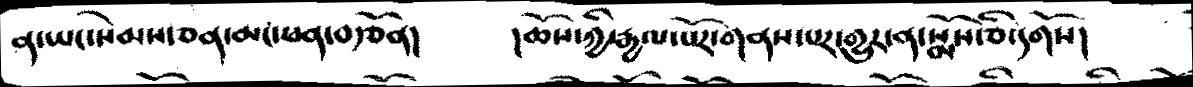ན་ཡང་སེམས་ཅན་མང་ཕན་བརྩོན།   །ཆོས་ཀྱི་རྒྱལ་པོར་གནས་པར་གྱུར་ན་སྨོས་ཅི་དགོས།
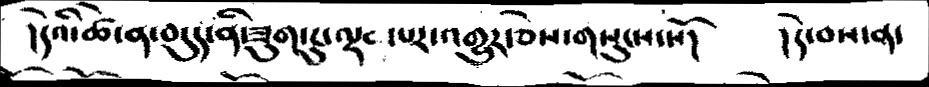།དེའི་ཚེ་ན་བདུད་ནི་ཟུག་ངུ་ལྡན་པར་འགྱུར་ཅེས་གསུངས་སོ།      །དེ་བས་ན་
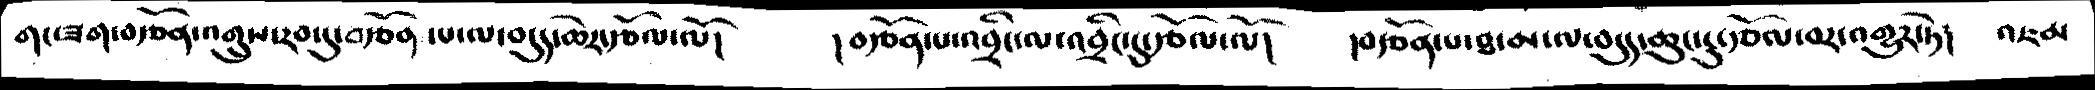གང་ཟག་བརྩོན་འགྲུས་རབ་དུ་བརྩོན་པ་ལ་བདུད་ཆེར་རྩོལ་ལོ།    །བརྩོན་པ་འབྲིང་ལ་འབྲིང་དུ་རྩོལ་ལོ།   །བརྩོན་པ་ཐ་མ་ལ་བདུད་ཆུང་ངུ་རྩོལ་བར་འགྱུར་ཏེ།   འཇམ
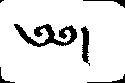༄༅།
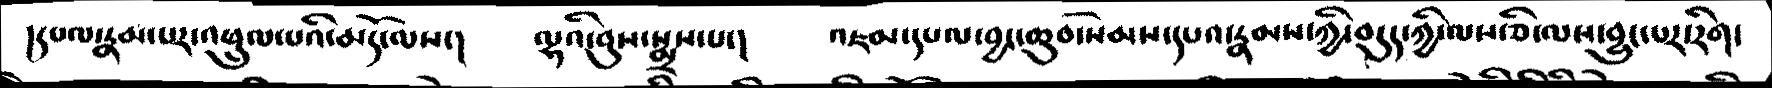།དཔལ་རྣམ་པར་འཕྲུལ་པའི་མདོ་ལས་།    ལྷའི་བུས་སྨྲས་པ་།   འཇམ་དཔལ་བྱང་ཆུབ་སེམས་དཔའ་རྣམས་ཀྱི་བདུད་ཀྱི་ལས་ཅི་ལས་བྱུང་པར་རིག་
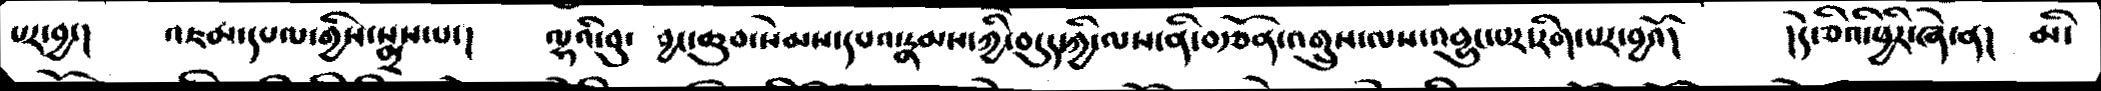པར་བྱ་།   འཇམ་དཔལ་གྱིས་སྨྲས་པ་།    ལྷའི་ བུ་བྱང་ཆུབ་སེམས་དཔའ་རྣམས་ཀྱི་བདུད་ཀྱི་ལས་ནི་བརྩོན་འགྲུས་ལས་འབྱུང་པར་རིག་པར་བྱའོ།     །དེ་ཅིའི་ཕྱིར་ཞེ་ན།   མི་
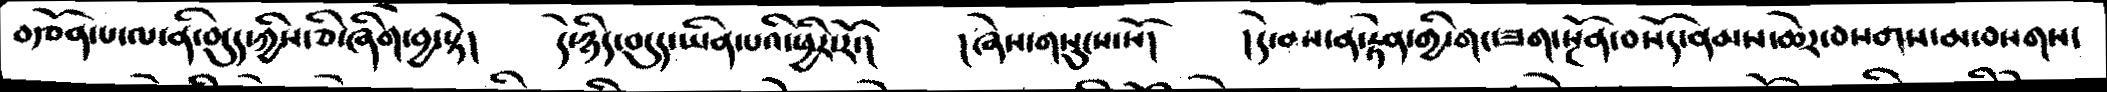བརྩོན་པ་ལ་ནི་བདུད་ཀྱིས་ཅི་ཞིག་བྱ་སྟེ།    དེ་ཉིད་བདུད་ཡིན་པའི་ཕྱིར་རོ་།   །ཞེས་གསུངས་སོ།  །དེ་བས་ན་རྟེན་གྱི་གང་ཟག་སྔོན་བསོད་ནམས་ཆེར་བསགས་མ་བསགས་
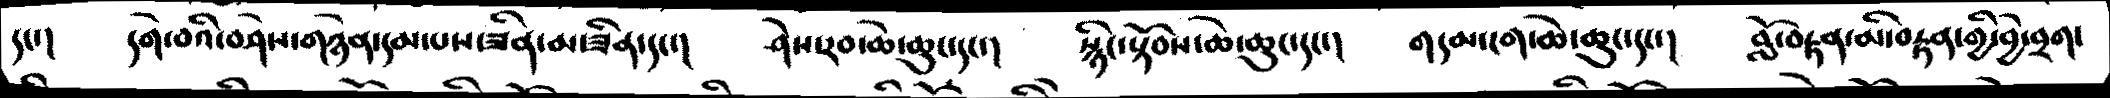དང་།   དགེ་བའི་བཤེས་གཉེན་དམ་པས་ཟིན་མ་ཟིན་དང་།   ཤེས་རབ་ཆེ་ཆུང་དང་།   སྙིང་སྟོབས་ཆེ་ཆུང་དང་།   གདམ་ངག་ཆེ་ཆུང་དང་།  བློ་བརྟན་མི་བརྟན་གྱི་བྱེ་བྲག་
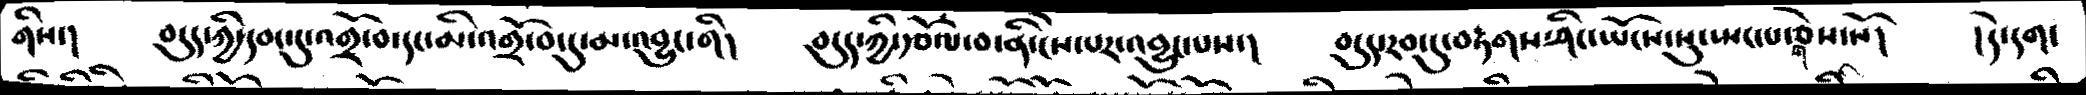གིས་།    བདུད་ཀྱི་དབང་དུ་འགྲོ་བ་དང་མི་འགྲོ་བ་དུ་མ་འབྱུང་གི།   བདུད་ཀྱི་རྩོལ་བ་ནི་ངེས་པར་འབྱུང་པས་།  བདུད་རབ་དུ་བརྟགས་ཤིང་ཡོངས་སུ་སྤང་པ་གཅེས་སོ།   །དེ་དག་
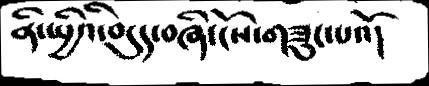ནི་སྤྱིའི་བདུད་བཞི་ངོས་གཟུང་པའོ།
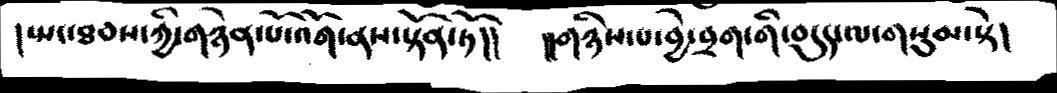།སྤང་ཐབས་ཀྱི་གཉེན་པོ་འོག་ནས་སྟོན་ཏོ།།    །།གཉིས་པ་བྱེ་བྲག་གི་བདུད་ལ་གསུམ་སྟེ།
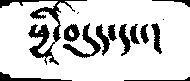ཕྱིའི་བདུད་དང་།
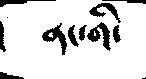ནང་གི་
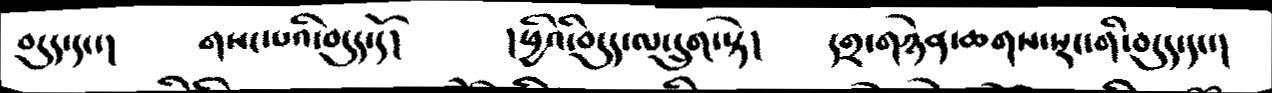བདུད་དང་།     གསང་པའི་བདུད་དོ།    །ཕྱིའི་བདུད་ལ་དྲུག་སྟེ།    དགྲ་གཉེན་ཆགས་སྡང་གི་བདུད་དང་།
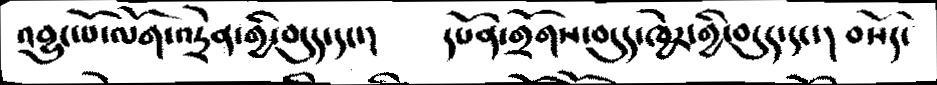འབྱུང་པོ་ལོག་འདྲེན་གྱི་བདུད་དང་།     དཔོན་གྲོགས་བདུད་ཁྱེར་གྱི་བདུད་དང་།   བསོད་
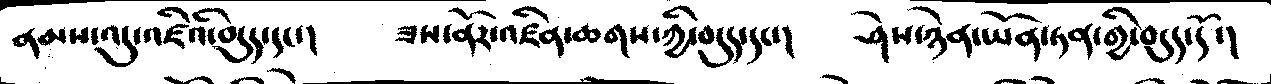ནམས་འདུ་འཛིའི་བདུད་དང་།     ཟས་ནོར་འཛིན་ཆགས་ཀྱི་བདུད་དང་།    ཤེས་ཉེན་ཡོན་ཏན་གྱི་བདུད་དོ་།
